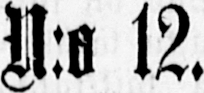N:o 12.
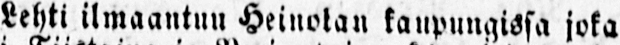Lehti ilmaantuu Heinolan kaupungissa joka
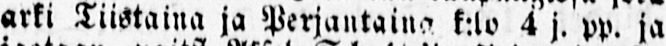arki Tiistaina ja Perjantaina k:lo 4 j. pp. ja
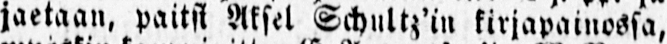jaetaan, paitsi Aksel Schultz'in kirjapainossa,
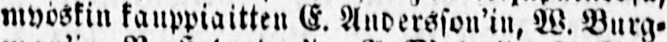myöskin kauppiaitten E. Andersson'in, W. Burg-
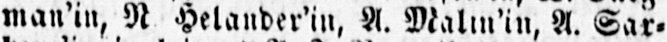man'in, N Helander'in, A. Malin'in, A. Sar-
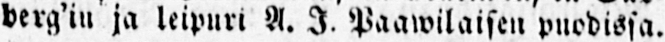derg'in ja leipuri A. I. Paawilaisen puodissa.
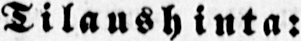Tilaushinta:
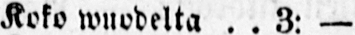Koko wuodelta 3: —
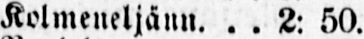Kolmeneljänn. 2: 50.
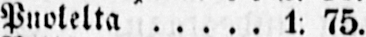Puolelta 1: 75.
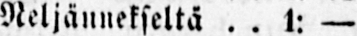Neljännekseltä 1: —
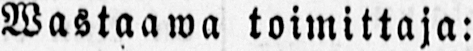Wastaawa toimittaja:
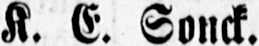K. E. Sonck.
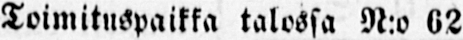Toimituspaikka talossa N:o 62
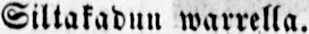Siltakadun warrella.
